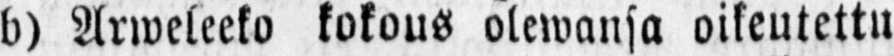b) Arweleeko kokous olewansa oikeutettu
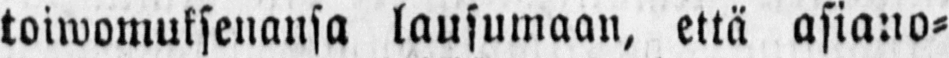toiwomuksenansa lausumaan, että asiano-
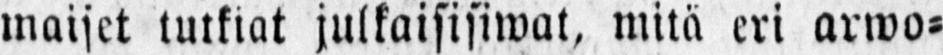maiset tutkiat julkaisisiwat, mita eri arwo-
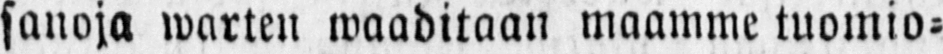sanoja warten waaditaan maannne tuomio-
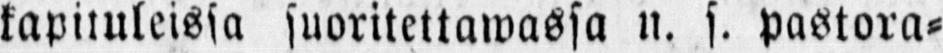kapituleissa suoritettawassa n. s. pastora-
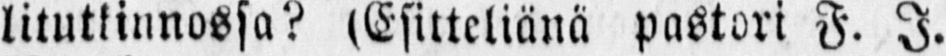litutkinnossa? (Esitteliänä pastori F. J.
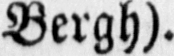Bergh).
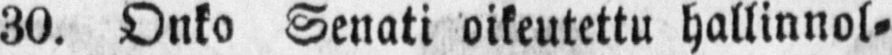30. Onko Senati oikeutettu hallinnol-
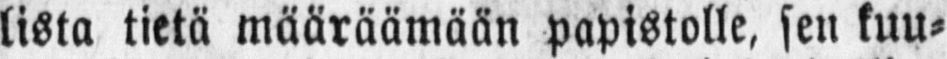lista tietä määräämään papistolle, sen kuu-
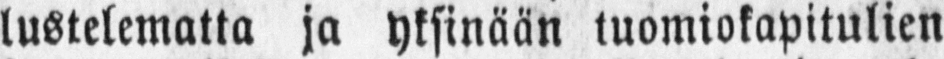lustelematta ja yksinään tuomiokapitulien
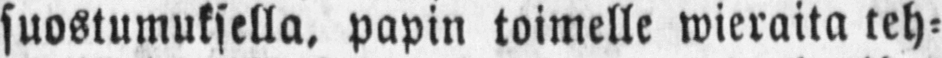suostumuksella, papin toimelle wieraita teh-
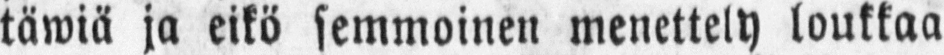täwiä ja eikö semmoinen menettely loukkaa
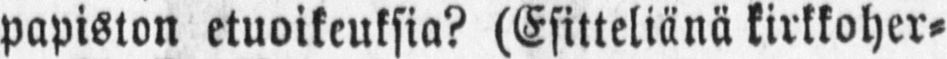papiston etuoikeuksia? (Esitteliänä kirkkoher-
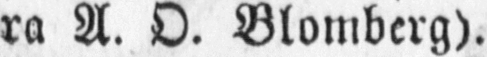ra A. O. Blomberg).
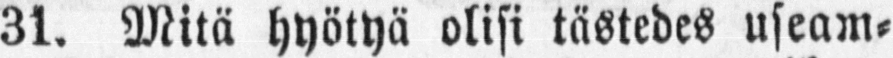31. Mitä hyötyä olisi tästedes useam-
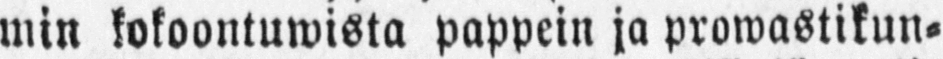min kokoontuwista pappein ja prowastikun-
